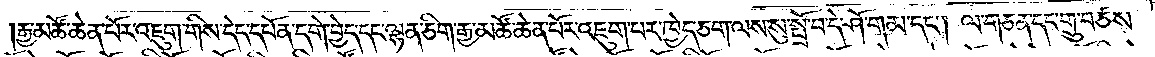རྒྱ་མཚོ་ཆེན་པོར་འཇུག་གིས་དེད་དཔོན་དགེ་བྱེད་དང་ལྷན་ཅིག་རྒྱ་མཚོ་ཆེན་པོར་འཇུག་པར་ཁྱེད་ཅག་ལས་སུ་སྤྲོ་བ་དེ་ཤོ་གམ་དང༌། ལ་གཅན་དང་གྲུ་བཙས་
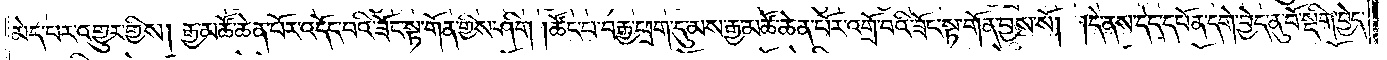མེད་པར་འགྱུར་གྱིས། རྒྱ་མཚོ་ཆེན་པོར་འདོད་པའི་ཟོང་སྟ་གོན་གྱིས་ཤིག །ཚོང་པ་བརྒྱ་ཕྲག་དུ་མས་རྒྱ་མཚོ་ཆེན་པོར་འགྲོ་བའི་ཟོང་སྟ་གོན་བྱས་སོ། །དེ་ནས་དེད་དཔོན་དགེ་བྱེད་ནུ་བོ་སྡིག་བྱེད་
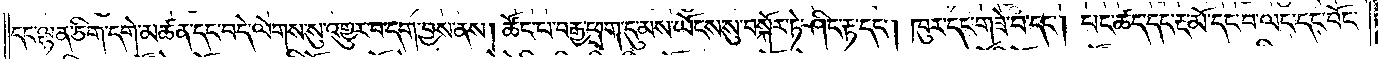དང་ལྷན་ཅིག་དགེ་མཚན་དང་བདེ་ལེགས་སུ་འགྱུར་བ་དག་བྱས་ནས། ཚོང་པ་བརྒྱ་ཕྲག་དུ་མས་ཡོངས་སུ་བསྐོར་ཏེ་ཤིང་རྟ་དང༌། ཁུར་དང་གཟེ་བ་དང༌། པང་ཚད་དང་རྔ་མོ་དང་བ་ལང་དང་བོང་
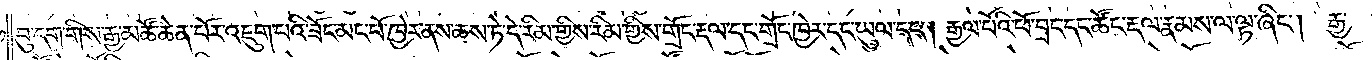བུ་དག་གིས་རྒྱ་མཚོ་ཆེན་པོར་འཇུག་པའི་ཟོང་མང་པོ་ཁྱེར་ནས་ཆས་ཏེ་དེ་རིམ་གྱིས་གྲོང་རྡལ་དང་གྲོང་ཁྱེར་དང་ཡུལ་དང༌། རྒྱལ་པོའི་ཕོ་བྲང་དང་ཚོང་རྡལ་རྣམས་ལ་ལྟ་ཞིང༌། རྒྱ་
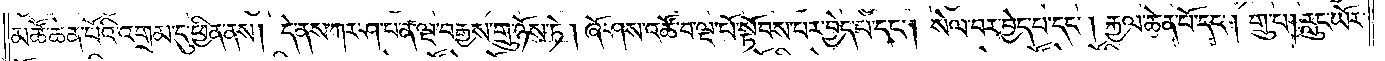མཚོ་ཆེན་པོའི་འགྲམ་དུ་ཕྱིན་ནས། དེས་ནས་ཀར་ཤ་པ་ན་ལྔ་བརྒྱས་གྲུ་ཉོས་ཏེ། ཞོ་ཤས་འཚོ་བ་ལྔ་པོ་སྟོབས་པར་བྱེད་པ་དང༌། སེལ་བར་བྱེད་པ་དང༌། རྐྱལ་ཆེན་པོ་དང༌། གྲུ་པ། རླུང་ཡོར་
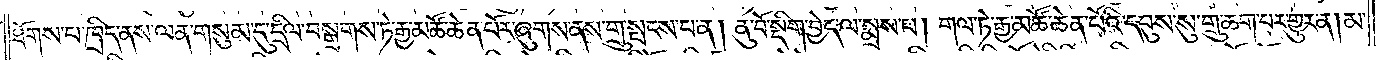ཐོགས་པ་ཁྲིད་ནས་ལན་གསུམ་དུ་དྲིལ་བསྒྲགས་ཏེ་རྒྱ་མཚོ་ཆེན་པོར་ཞུགས་ནས་གྲུ་སྤངས་པ་ན། ནུ་བོ་སྡིག་བྱེད་ལ་སྨྲས་པ། གལ་ཏེ་རྒྱ་མཚོ་ཆེན་པོའི་དབུས་སུ་གྲུ་ཆག་པར་གྱུར་ན། མ་
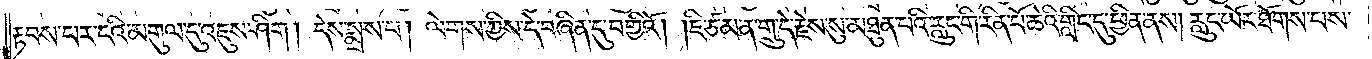རྟབས་པར་ངའི་མགུལ་དུ་འཇུས་ཤིག །དེས་སྨྲས་པ། ལེགས་ཀྱིས་དེ་བཞིན་དུ་བགྱིའོ། །ཇི་ཙམ་ན་གྲུ་དེ་རྗེས་སུ་མཐུན་པའི་རླུང་གི་རིན་པོ་ཆེའི་གླིང་དུ་ཕྱིན་ནས། རླུང་ཡོར་ཐོགས་པས་
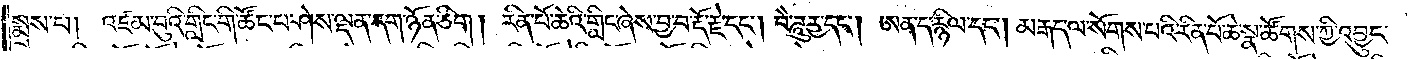སྨྲས་པ། འཛམ་བུའི་གླིང་གི་ཚོང་པ་ཤེས་ལྡན་དག་ཉོན་ཅིག །རིན་པོ་ཆེའི་གླིང་ཞེས་བྱ་བ་རྡོ་རྗེ་དང༌། བཻ་ཌཱུཪྻ་དང༌། ཨན་ད་རྙིལ་དང༌། མརྒད་ལ་སོགས་པའི་རིན་པོ་ཆེ་སྣ་ཚོགས་ཀྱི་འབྱུང་
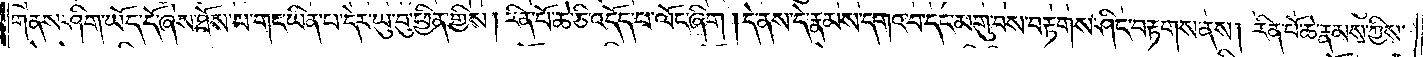གནས་ཤིག་ཡོད་དོ་ཞེས་ཐོས་པ་གང་ཡིན་པ་དེར་ཡུ་བུ་ཕྱིན་གྱིས། རིན་པོ་ཆེ་ཅི་འདོད་པ་ལོང་ཞིག །དེ་ནས་དེ་རྣམས་དགའ་བ་དང་མགུ་བས་བརྟགས་ཤིང་བརྟགས་ནས། རིན་པོ་ཆེ་རྣམས་ཀྱིས་
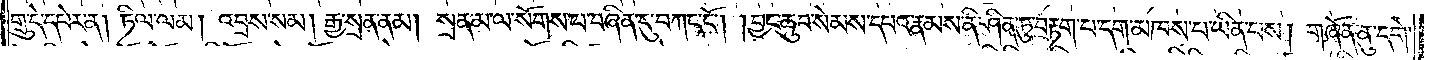གྲུ་དེ་དཔེར་ན། ཏིལ་ལམ། འབྲས་སམ། རྒྱ་སྲན་ནམ། སྲན་མ་ལ་སོགས་པ་བཞིན་དུ་བཀང་ངོ༌། །བྱང་ཆུབ་སེམས་དཔའ་རྣམས་ནི་ཤིན་ཏུ་བརྟག་པ་དག་མཁས་པ་ཡིན་པས། གཞོན་ནུ་དགེ་
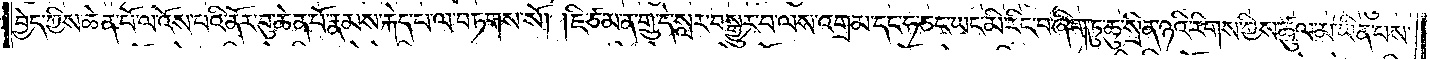བྱེད་ཀྱིས་ཆེན་པོ་ལ་འོས་པའི་ནོར་བུ་ཆེན་པོ་རྣམས་རྐེད་ལ་བཏགས་སོ། །ཇི་ཙམ་ན་གྲུ་དེ་སླར་བསྒྱུར་བ་ལས་འགྲམ་དང་ཧ་ཅང་ཡང་མི་རིང་བ་ཞིག་ཏུ་ཆུ་སྲིན་ཉའི་རིགས་ཀྱིས་ཚུལ་མ་ཡིན་པས་
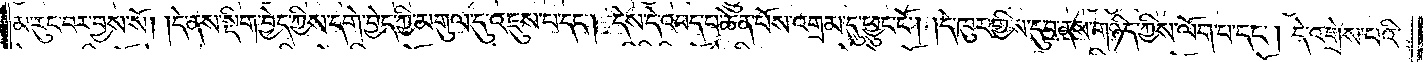མ་རུང་བར་བྱས་སོ། །དེ་ནས་སྡིག་བྱེད་ཀྱིས་དགེ་བྱེད་ཀྱི་མགུལ་ནས་འཇུས་པ་དང༌། དེས་དེ་འབད་པ་ཆེན་པོས་འགྲམ་དུ་ཕྱུང་ངོ༌། །དེ་ཁུར་གྱིས་དུབ་ནས་གཉིད་ཀྱིས་ལོག་པ་དང༌། དེ་འགྲེས་པའི་
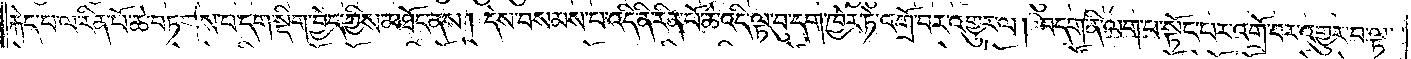རྐེད་པ་ལ་རིན་པོ་ཆེ་བཏགས་པ་དག་སྡིག་བྱེད་ཀྱིས་མཐོང་ནས། དེས་བསམས་པ་འདི་ནི་རིན་པོ་ཆེ་འདི་ལྟ་བུ་དག་ཁྱེར་ཏེ་འགྲོ་བར་འགྱུར་ལ། བདག་ནི་ལག་པ་སྟོང་པར་འགྲོ་བར་འགྱུར་བ་ལྟ་
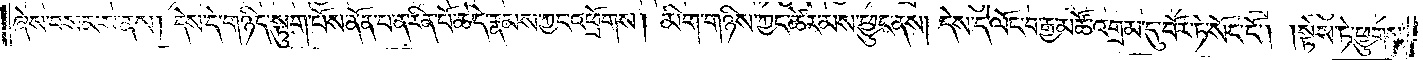ཞེས་བསམས་ནས། དེས་དེ་གཉིད་སྟུག་པོས་ནོན་པ་ན་རིན་པོ་ཆེ་དེ་རྣམས་ཀྱང་འཕྲོགས། མིག་གཉིས་ཀྱང་ཚེར་མས་ཕྱུང་ནས། དེས་དེ་ལོང་བ་རྒྱ་མཚོ་འགྲམ་དུ་བོར་ཏེ་སོང་ངོ༌། །སྟེས་ཏེ་ཕྱུགས་
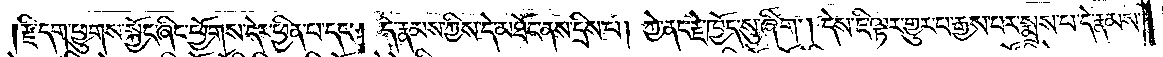རྫི་དག་ཕྱུགས་སྐྱོང་ཞིང་ཕྱོགས་དེར་ཕྱིན་པ་དང༌། དེ་རྣམས་ཀྱིས་དེ་མཐོང་ནས་དྲིས་པ། ཀྱེ་ནང་རྗེ་ཁྱོད་སུ་ཞིག །དེས་ཇི་ལྟར་གྱུར་པ་རྒྱས་པར་སྨྲས་པ་དེ་རྣམས་
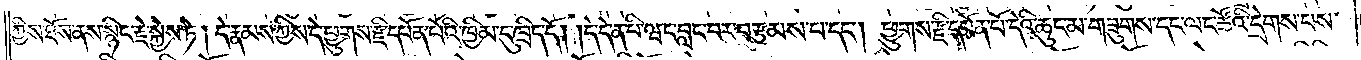ཀྱིས་ཐོས་ནས་སྙིང་རྗེ་སྐྱེས་ཏེ། དེ་རྣམས་ཀྱིས་དེ་ཕྱུགས་རྫི་དཔོན་པོའི་ཁྱིམ་དུ་ཁྲིད་དོ། །དེ་དེ་ན་པི་ཝང་བླང་བར་བརྩམས་པ་དང༌། ཕྱུགས་རྫི་དཔོན་པོ་དེའི་ཆུང་མ་གཟུགས་དང་ལང་ཚོའི་དྲེགས་པས་
